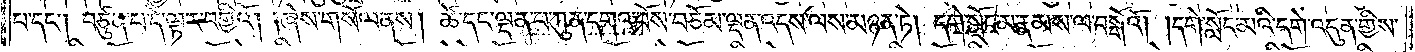པ་དང༌། བཙུན་པ་དེ་ལྟར་བགྱིའོ། །ཞེས་གསོལ་ནས། ཚེ་དང་ལྡན་པ་ཀུན་དགའ་བོས་བཅོམ་ལྡན་འདས་ལས་མཉན་ཏེ། དགེ་སློང་མ་རྣམས་ལ་བསྒོའོ། །དགེ་སློང་མའི་དགེ་འདུན་གྱིས་
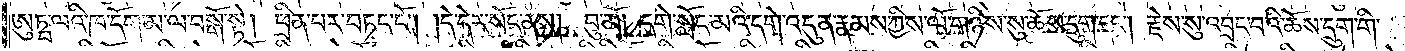ཨུཏྤ་ལའི་ཁ་དོག་མ་ལ་བསྒོ་སྟེ། ཕྲིན་པར་བཏང་ངོ༌། །དེ་དེར་སོང་ནས། བུ་མོ། དགེ་སློང་མའི་དགེ་འདུན་རྣམས་ཀྱིས་ལོ་གཉིས་སུ་ཆོས་དྲུག་དང༌། རྗེས་སུ་འབྲང་བའི་ཆོས་དྲུག་གི་
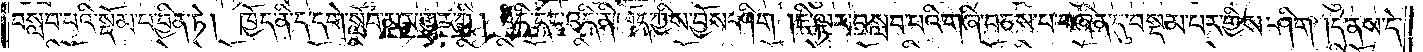བསླབ་པའི་སྡོམ་པ་བྱིན་ཏེ། ཁྱོད་ནི་ད་དགེ་སློབ་མར་གྱུར་ཀྱི། འདི་དང་འདི་ནི་ཁྱོད་ཀྱིས་བྱོས་ཤིག །ཇི་ལྟར་བསླབ་པའི་གཞི་བཅས་པ་བཞིན་དུ་བསྡམ་པར་གྱིས་ཤིག །དེ་ནས་དེ་
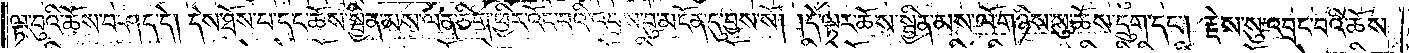ལྟ་བུའི་ཆོས་བཤད་དེ། དེས་ཐོས་པ་དང་ཆོས་སྦྱིན་མས་ལན་ཅིག་ཕྱིར་འོང་བའི་འབྲས་བུ་མངོན་དུ་བྱས་སོ། །དེ་ལྟར་ཆོས་སྦྱིན་མས་ལོ་གཉིས་སུ་ཆོས་དྲུག་དང༌། རྗེས་སུ་འབྲང་བའི་ཆོས་
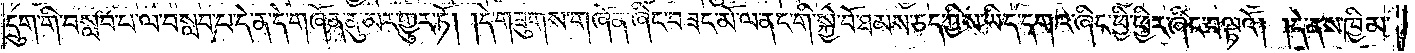དྲུག་གི་བསླབ་པ་ལ་བསླབ་པ་དེ་ན་དེ་བཞོན་ནུ་མར་གྱུར་ཏོ། །དེ་གཟུགས་གཞོན་ཞིང་བཟང་མོ་ལ་ནང་གི་སྐྱེ་བོ་ཐམས་ཅད་ཀྱིས་ཡིད་དགའ་ཞིང་ཕྱི་ཕྱིར་ཞིང་བལྟའོ། །དེ་ནས་ཁྱིམ་
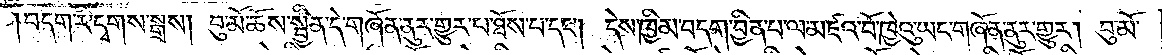བདག་རི་དྭགས་སྒྲས། བུ་མོ་ཆོས་སྦྱིན་དེ་གཞོན་ནུར་གྱུར་པ་ཐོས་པ་དང༌། དེས་ཁྱིམ་བདག་བྱིན་པ་ལ་མཛའ་བོ་ཁྱེའུ་ཡང་གཞོན་ནུར་གྱུར། བུ་མོ་
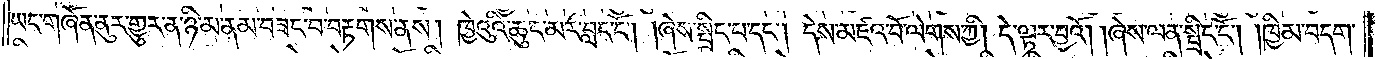ཡང་གཞོན་ནུར་གྱུར་ན་ཉི་མ་ནམ་བཟང་བ་བརྟགས་ནས། ཁྱེའུའི་ཆུང་མར་བླང་ངོ༌། །ཞེས་སྤྲིང་པ་དང༌། དེས་མཛའ་བོ་ལེགས་ཀྱི། དེ་ལྟར་བྱའོ། །ཞེས་ལན་སྤྲིང་ངོ༌། །ཁྱིམ་བདག་
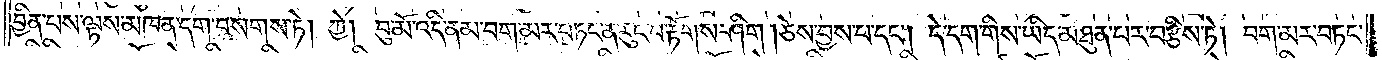བྱིན་པས་ལྟས་མཁན་དག་བསགས་ཏེ། ཀྱེ། བུ་མོ་འདི་ནམ་བག་མར་བཏང་ན་རུང་བ་རྟོགས་ཤིག །ཅེས་བྱས་པ་དང༌། དེ་དག་གིས་ཡིད་མཐུན་པར་བརྩིས་ཏེ། བག་མར་བཏང་
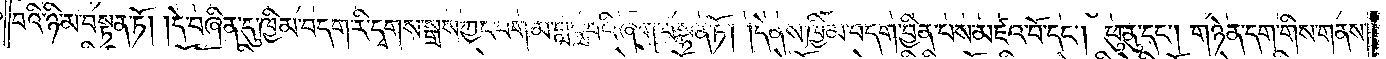བའི་ཉི་མ་བསྟན་ཏོ། །དེ་བཞིན་དུ་ཁྱིམ་བདག་རི་དྭགས་སྒྲས་ཀྱང་བག་མ་བླང་བའི་ཞག་བསྟན་ཏོ། །དེ་ནས་ཁྱིམ་བདག་བྱིན་པས་མཛའ་བོ་དང༌། ཕུ་ནུ་དང༌། གཉེན་དག་གིས་གནས་
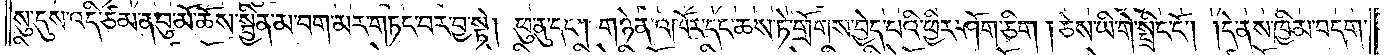སུ་དུས་འདི་ཙམ་ན་བུ་མོ་ཆོས་སྦྱིན་མ་བག་མར་གཏང་བར་བྱ་སྟེ། ཕུ་ནུ་དང༌། གཉེན་འཁོར་དང་ཆས་ཏེ་གྲོགས་བྱེད་པའི་ཕྱིར་ཤོག་ཅིག །ཅེས་ཡི་གེ་སྤྲིང་ངོ༌། །དེ་ནས་ཁྱིམ་བདག་
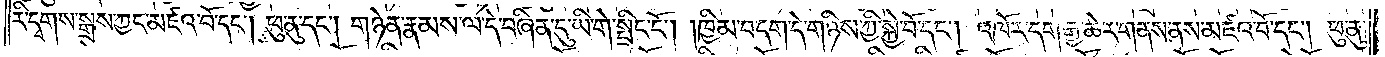རི་དྭགས་སྒྲས་ཀྱང་མཛའ་བོ་དང༌། ཕུ་ནུ་དང༌། གཉེན་རྣམས་ལ་དེ་བཞིན་དུ་ཡི་གེ་སྤྲིང་ངོ༌། །ཁྱིམ་བདག་དེ་གཉིས་ཀྱི་སྐྱེ་བོ་དང༌། འཁོར་དང་རྒྱ་ཆེར་གནས་ནས་མཛའ་བོ་དང༌། ཕུ་ནུ་
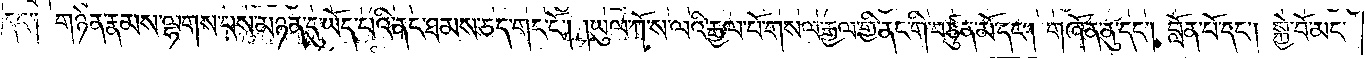དང་༑ གཉེན་རྣམས་ལྷགས་པས་མཉན་དུ་ཡོད་པའི་ནང་ཐམས་ཅད་གང་ངོ༌། །ཡུལ་ཀོ་ས་ལའི་རྒྱལ་པོ་གསལ་རྒྱལ་གྱི་ནང་གི་བཙུན་མོ་དང༌། གཞོན་ནུ་དང༌། བློན་པོ་དང༌། སྐྱེ་བོ་མང་
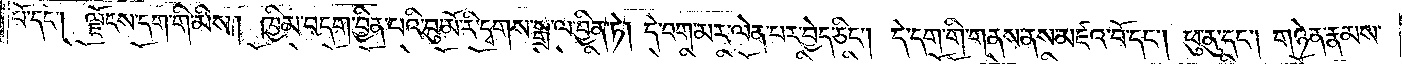པོ་དང༌། ལྗོངས་དག་གི་མིས། ཁྱིམ་བདག་བྱིན་པའི་བུ་མོ་རི་དྭགས་སྒྲ་ལ་བྱིན་ཏེ། དེ་བག་མར་ལེན་པར་བྱེད་ཅིང༌། དེ་དག་གི་གནས་ནས་མཛའ་བོ་དང༌། ཕུ་ནུ་དང༌། གཉེན་རྣམས་
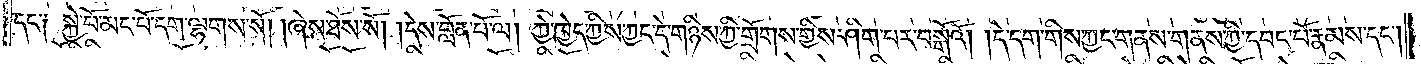དང་༑ སྐྱེ་པོ་མང་པོ་དག་ལྷགས་སོ། །ཞེས་ཐོས་སོ། །དེས་བློན་པོ་ལ། ཀྱེ་ཁྱེད་ཀྱིས་ཀྱང་དེ་གཉིས་ཀྱི་གྲོགས་ཀྱིས་ཤིག་པར་བསྒོའོ། །དེ་དག་གིས་ཀྱང་གནས་གནས་ཀྱི་དབང་པོ་རྣམས་དང༌།
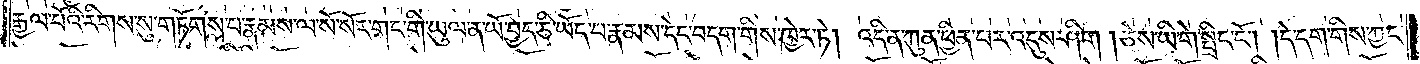རྒྱལ་པོའི་རིགས་སུ་གཏོགས་པ་རྣམས་ལ་སོ་སོར་གང་གི་ཡུལ་ན་ཡོ་བྱད་ཅི་ཡོད་པ་རྣམས་དེང་བདག་གིས་ཁྱེར་ཏེ། འདི་ན་ཀུན་ཕྱིན་པར་འདུས་ཤིག །ཅེས་ཡི་གེ་སྤྲིང་ངོ༌། །དེ་དག་གིས་ཀྱང་
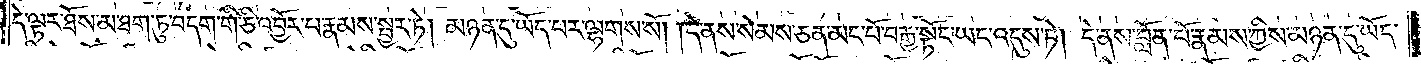དེ་ལྟར་ཐོས་མ་ཐག་ཏུ་བདག་གི་ཅི་འབྱོར་པ་རྣམས་སྦྱར་ཏེ། མཉན་དུ་ཡོད་པར་ལྷགས་སོ། །དེ་ནས་སེམས་ཅན་མང་པོ་བརྒྱ་སྟོང་ཡང་འདུས་ཏེ། དེ་ནས་བློན་པོ་རྣམས་ཀྱིས་མཉན་དུ་ཡོད་
